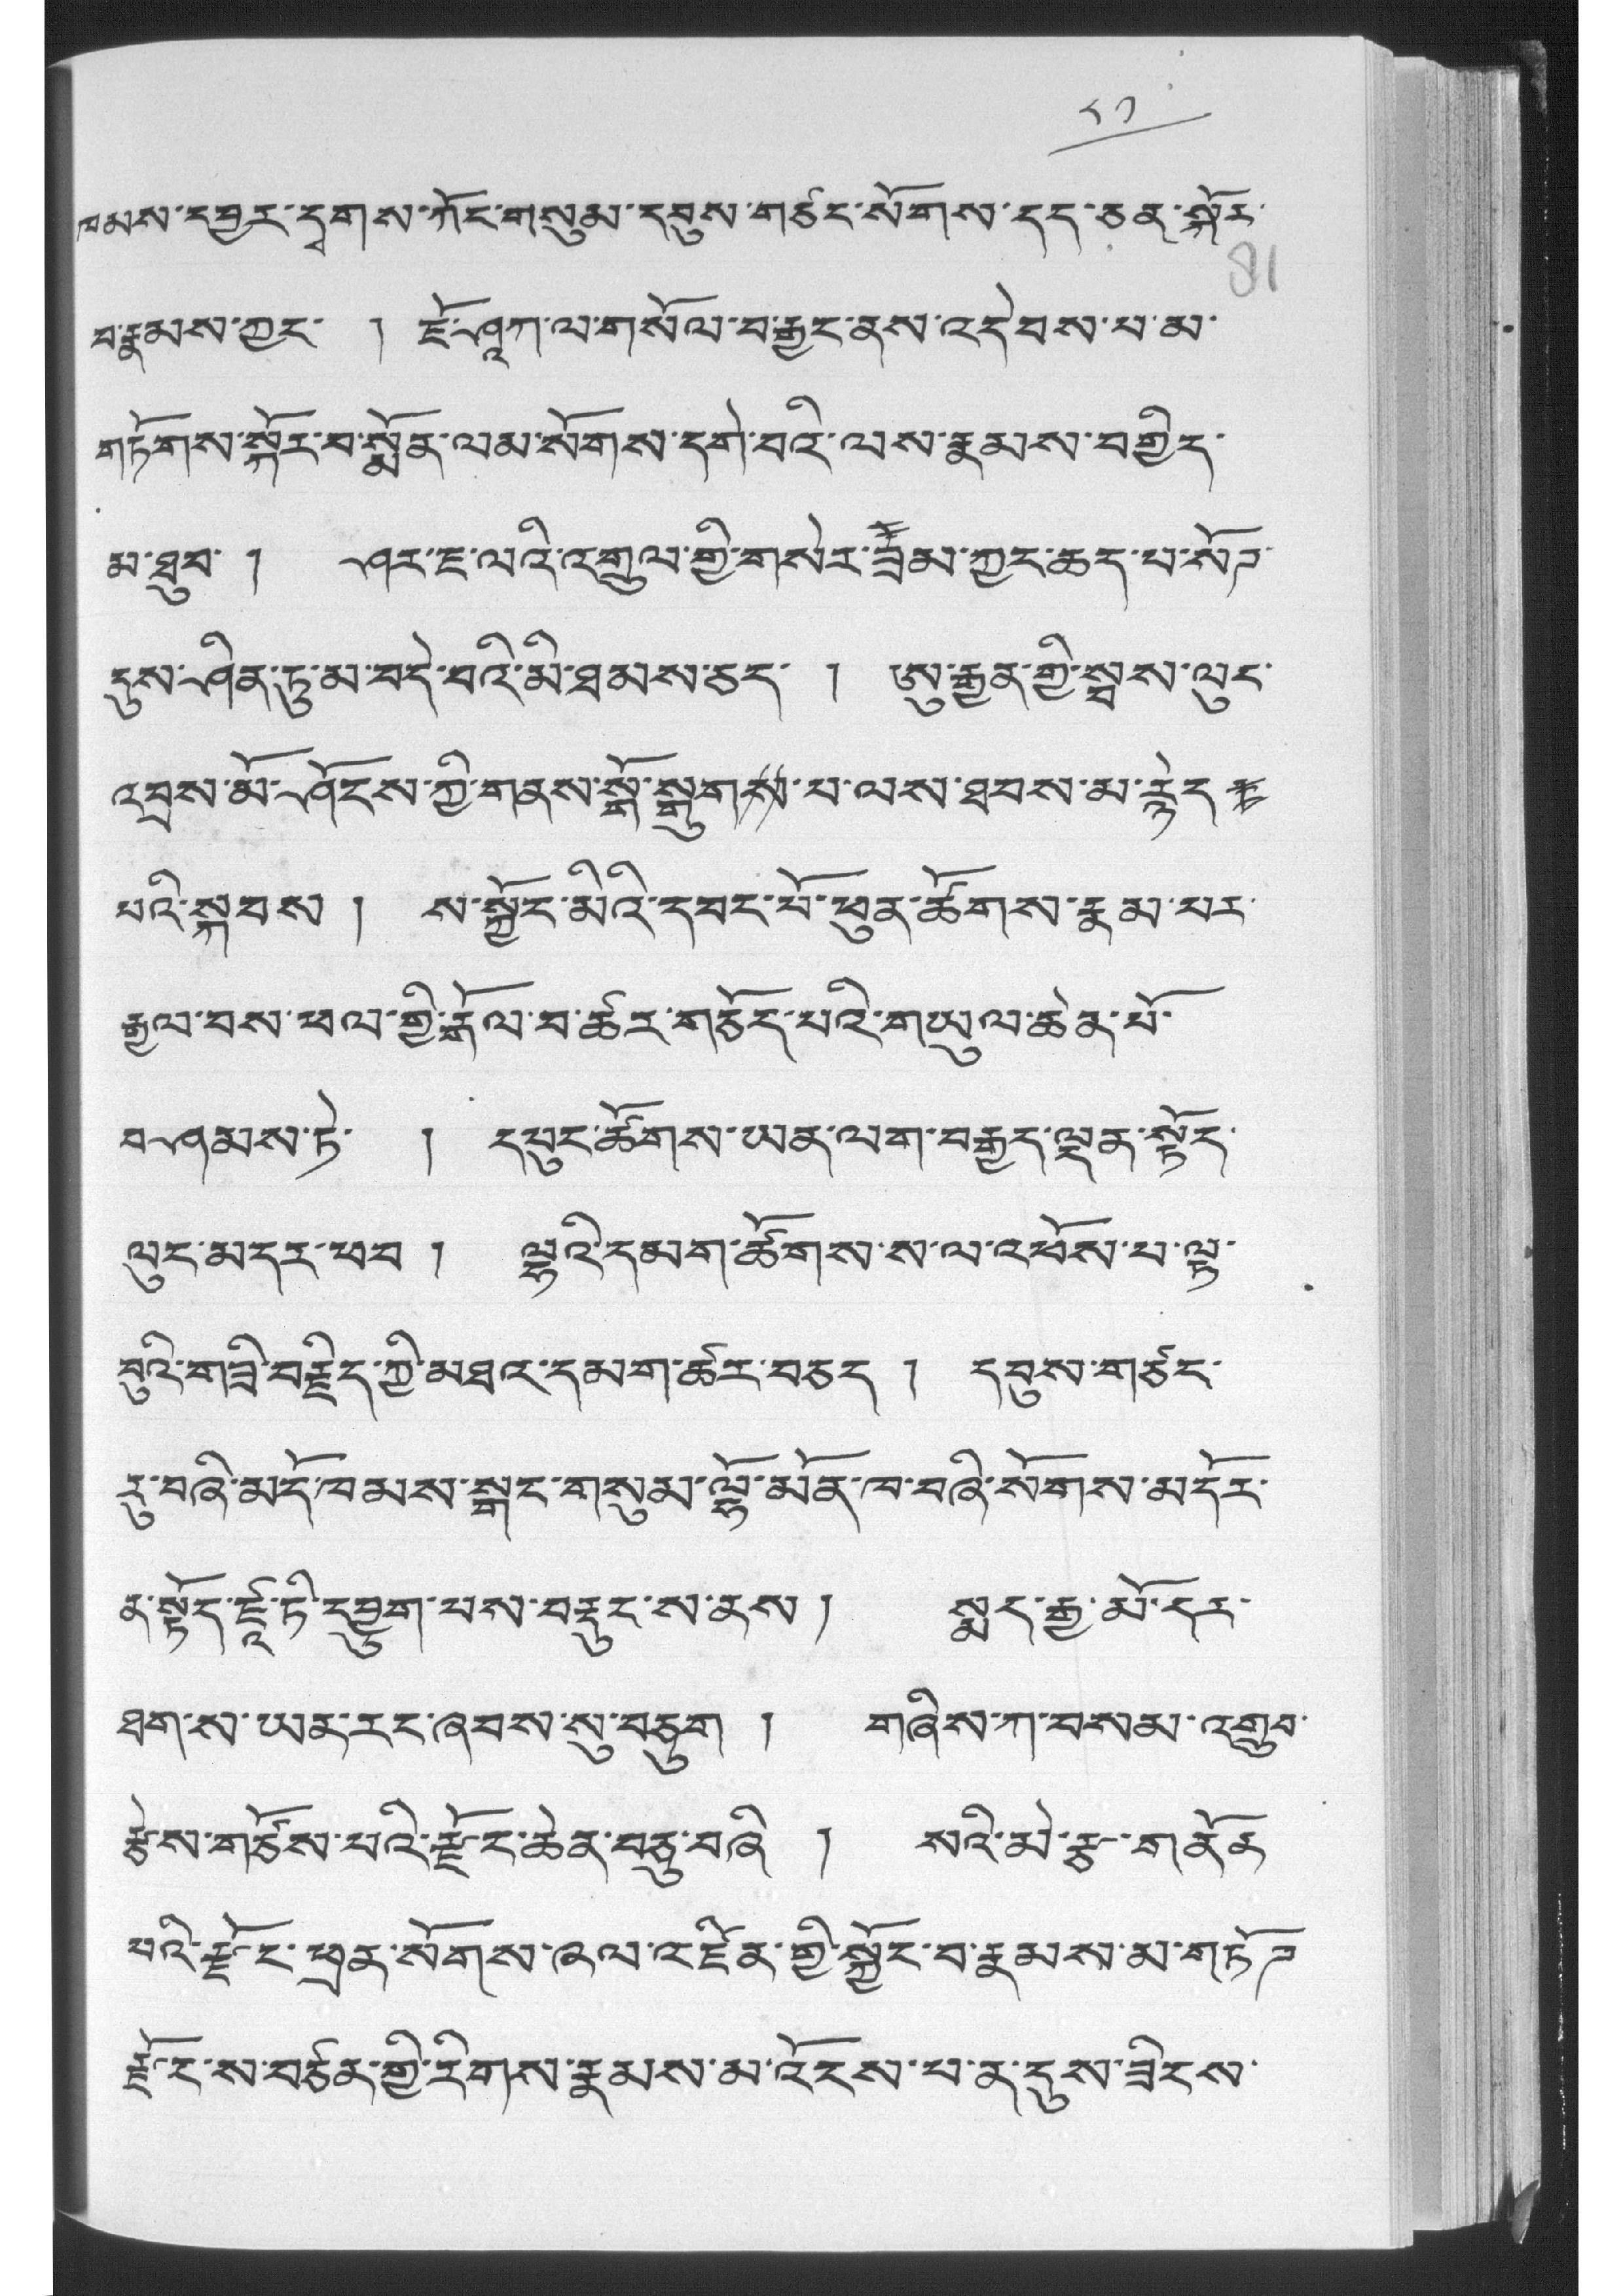༨༡
ཁམས་དབྱར་དྭགས་ཀོང་གསུམ་དབུས་གཙང་སོགས་དད་ཅན་སྐོར་
བ་རྣམས་ཀྱང་ ། ཇོ་ཤཱཀ་ལ་གསོལ་བ་རྒྱང་ནས་འདེབས་པ་མ་
གཏོགས་སྐོར་བ་སྨོན་ལམ་སོགས་དགེ་བའི་ལས་རྣམས་བགྱིད་
མ་ཐུབ་ ། ཤར་ཇ་ལའི་འགྲུལ་གྱི་གསར་ཟེཟམ་ཀྱང་ཆད་པ་སོཊ་
དུས་ཤིན་ཏུ་མ་བདེ་བའི་མི་ཐམས་ཅེད་ ། ཨུ་རྒྱན་གྱི་སྦས་ལུང་
འབྲས་མོ་ཤོངས་ཀྱི་གནས་སྒོ་སྒུགས་པ་ལས་ཐབས་མ་རྙེད་ །
པའི་སྐབས ། ས་སྐྱོང་མིའི་དབང་པོ་ཕུན་ཚོགས་རྣམ་པར་
རྒྱལ་བས་ཕལ་གྱི་རྒོལ་བ་ཚར་གཅོད་པའི་གཡུལ་ཆེན་པོ་
བཤམས་ཏེ་ ། དཔུང་ཚོགས་ཡན་ལག་བརྒྱུད་ལྡན་སྟོད་
ལུང་མདར་ཕབ། ལྷའི་དམག་ཚོགས་ས་ལ་འཕོས་པ་ལྟ་
བུའི་གཟི་བརྗིད་ཀྱི་མཐའ་དམག་ཚར་བཅད ། དབུས་གཙང་
རུ་བཞི་མདོ་ཁམས་སྒང་གསུམ་ལྷོ་མོན་ལ་བཞི་སོགས་མདོར་
ན་སྟོད་ཛཱ་ཏི་དབྱུག་པས་བརྡུང་ས་ནས། སྨད་རྒྱ་མོ་དར་
ཐག་ས་ཡན་རང་ཞབས་སུ་བཅུག ། གཞིས་ཀ་བསམ་འགྲུབ་
རྩེས་གཙོས་པའི་རྫོང་ཆེན་བཅུ་བཞི ། སའི་མེ་རྩ་གནོན་
པའི་རྫོང་ཕྲན་སོགས་ཞལ་འཛིན་གྱི་སྐྱོང་བ་རྣམས་མ་གཏོཌ
རྫོང་ས་བཙན་གྱི་རིགས་རྣམས་མ་འོངས་པ་ན་དུས་ཟིངས་
